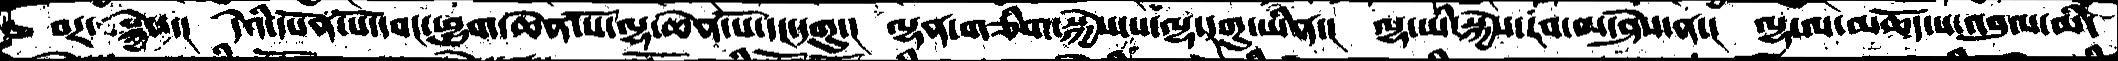བར་སྐྱེས་།  དེའི་དཔོན་པོ་དབང་ཕྱུག་ཆེན་པོ་ལྷ་ཆེན་པོོ་དང་དགུ་།  ལྷན་གཅིག་སྐྱེས་པ་ལྷ་དགུ་ཡིན་།  ལྷ་ཡི་སྐྱེས་རབ་མ་ཤེས་ན་།  ལྷ་ལ་མཆོད་པ་འབུལ་མི་
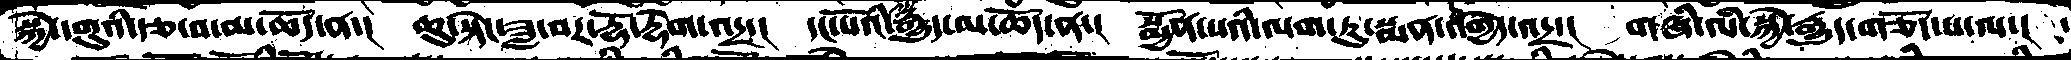སྐྱེ་དགུའི་རྩ་བ་མ་ཆོད་ན་།  ཆུ་སྟེང་ཟླ་བར་རྡོ་རྡེག་འདྲ་།  དང་པོའི་སྐྱེ་རྒྱུད་མ་ཆོད་ན་།  སྨྱོན་པའི་ལག་ཏུ་སྨན་འགྱེེད་འདྲ་།  གཞི་ལཾ་སྐྱེ་རྒྱུད་གཅོད་པ་ལ་།
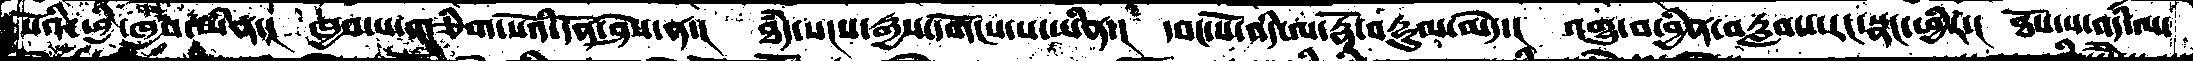སོའི་ཕྱི་ཁྱབ་ཡིན་།  ཁྱབ་པ་གཅིག་སོའི་དོན་ཤེས་ན་།  ཐཾད་སངས་རྒྱས་དགོངས་པ་ཡིན་།  དབང་པོ་འདི་ལ་རྣོ་བརྟུལ་མེད་།  འགྱུ་བ་བྱིན་བརླབས་རང་སྣང་ཕྱིར་།  ཐོས་པ་འདི་ལ་
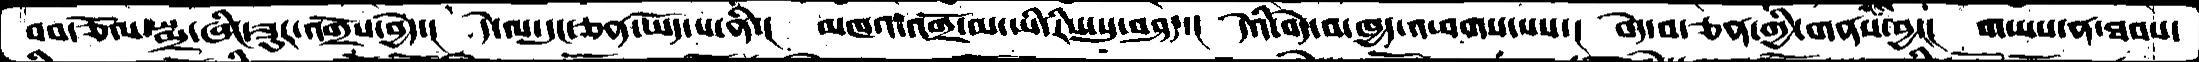བབ་ཅོལ་སྨྲ་ཞིང་ཟུར་འགྲོས་བྱེད་། དེ་ལ་དུང་ཅན་ཡོད་པ་ནི་། མཁའ་འགྲོ་མ་ཡི་རིས་སུ་བཤད་། དེའི་བདེ་བ་ཁྱད་འཕགས་པས་། བདེ་བ་ཅན་གྱི་གནས་ནས་བྱ།།  གཡས་ན་ཐབས་
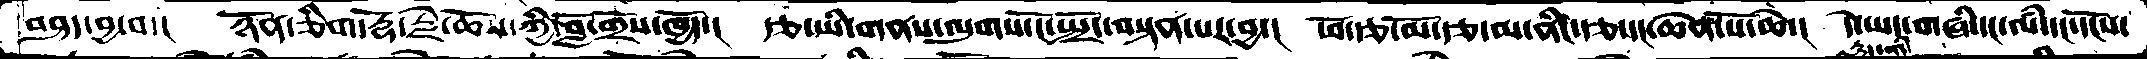བཤད་བྱ་བ་།  ཉོནཅིག་རྡོ་རྗེ་ཆོས་ཀྱི་བློ་གྲོས་ཁྱོད་། རྩ་ཡི་གནས་ལུགས་ངོ་སྤྲོད་བསྟན་པར་བྱ་། ཕོ་རྩ་མོ་རྩ་མ་ནིང་རྩ་དང་ཆེན་པོ་ཆེ་། དེ་ཡང་གཞི་དང་ལཾ་དང་དངོས་
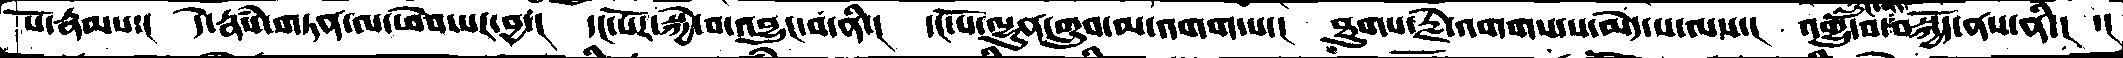པོ་རྣམས་། དེ་རྣཾས་གཏན་ལ་ཕེབ་པར་བྱ་། དང་པོར་སྐྱེ་བ་འབྱུང་བ་ནི་། དང་པོ་ལྷུན་གྲུབ་མ་འགག་པ་། ཐུགས་རྗེ་འགགས་པ་མེད་པ་ལས་། འགྱུ་བ་རླུང་ནད་བསྐྱོད་ནས་ནི་།  ་།
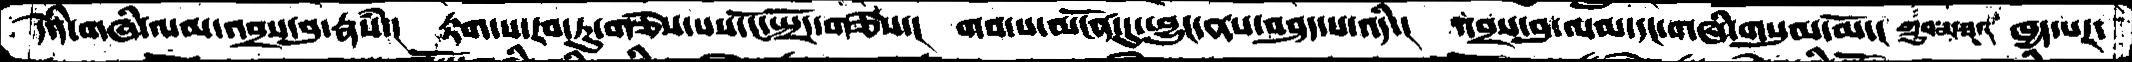དེའི་གཞི་ལམ་འབྲས་བུ་རྣཾས་། རྟག་པ་རབ་ཏུ་གཅེས་པས་ངོ་སྤྲོད་གཅེས་། གབ་པ་མངོན་དུ་ཕྱུང་ནས་བཤད་པ་འདི་། འབྲས་བུ་ལམ་དང་གཞི་གསུམ་མོ་། གྲུབ་མཐའ་ཁྱད་པར་
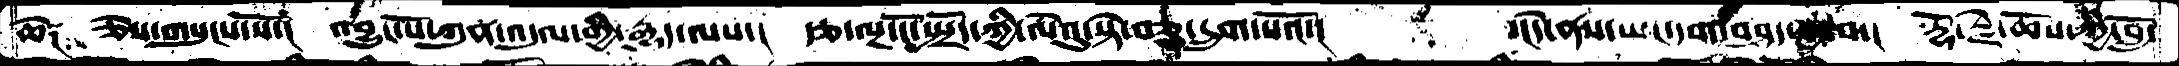ཆེ༑  ཅེས་གསུངས་སོ་། འབྱུང་པོ་ཀུན་འདུལ་གྱི་རྒྱུད་ལས་། རྩ་ལྔ་ངོ་སྤྲོད་ཀྱི་ལེའུ་སྟེ་བཅུ་དྲུག་པའོ་།   ༈  ་།དེ་ནས་ཡང་དག་བཤད་བྱ་བ་། རྡོ་རྗེ་ཆོས་ཀྱི་བློ་
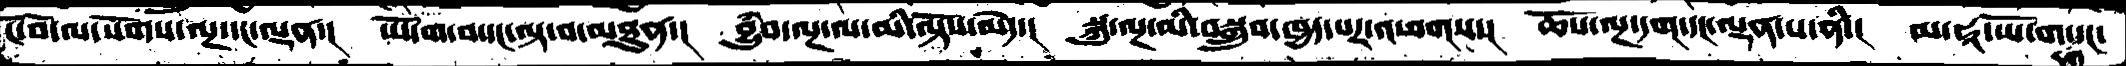ངོ་བོ་ལ་སོགས་ལྔ་དང་ལྡན་།  ཡོ་ག་བ་དང་ལྟ་བ་མཐུན་། བྱུཾབ་ལྔ་ལ་མི་ལྟོས་མེད་། སྐུ་ལྔ་མི་བསྒྲུབ་ཁྱད་པར་འཕགས་། ཆོས་ལྔ་དག་དང་ལྡན་པ་ནི་། མ་ཧཱ་ཡོ་ག་དག་དང་
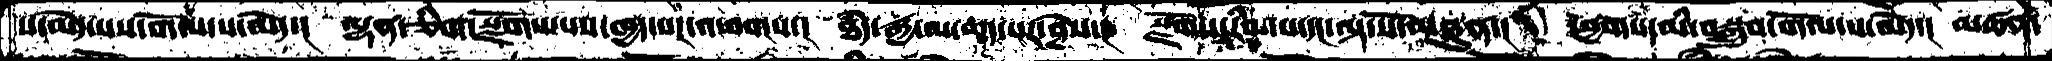ས་མེད་པས་གོལ་ས་མེད་། ལྷན་ཅིག་སྫོགས་པས་ཁྱད་པར་འཕགས་། ཐཾད་རྒྱ་ལ་ཆད་པར་བྱེས་། སྫོགས་རིམ་པ་དང་ལྟ་སོ་མཐུན་། ཕྱོགས་མི་བསྒྲུབ་གོལ་ས་མེད་། མཚན་
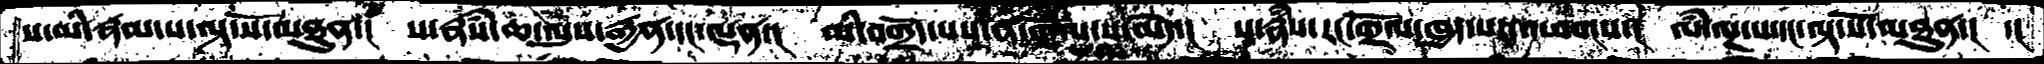ས་མི་རྣམ་པ་ལྟ་སོ་མཐུན་། ས་རྣཾས་ཆ་ལུས་རྒྱན་དང་ལྡན་། མི་བགྲོད་པས་ན་གྲོལ་ས་མེད་། ས་རྣཾས་རང་གྲོལ་ཁྱད་པར་འཕགས་། ལཾ་ལྔ་ས་དང་ལྟ་སོ་མཐུན་།  ་།
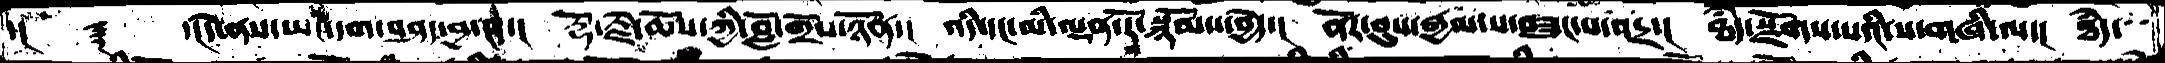་།  ༈  ་།དེ་ནས་ཡང་དག་བཤད་བྱ་བ་། རྡོ་རྗེ་ཆོས་ཀྱི་བློ་གྲོས་ཉོན་། འདི་དང་མི་ལྡན་རོ་སྙོམས་བྱེད་། ནོར་བུས་རྒྱལ་པ་བཟུང་པ་འདྲ་། ཐཾད་སྫོགས་པའི་ས་གཞི་ལ་། ཐཾད་་
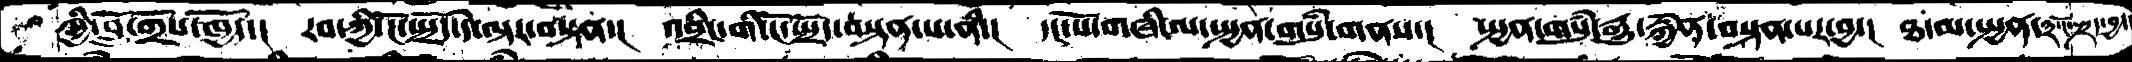ཀྱི་བློ་གྲོས་ཁྱོད་།  རབ་ཀྱི་ངོ་སྤྲོད་དེ་ལྟར་བསྟན་། འབྲིང་གི་ངོ་སྤྲོད་བསྟན་པ་ནི་།  དང་པོ་གཞི་ལ་སྤྱན་གསུཾ་གནས་། སྤྱན་གསུཾ་རྒྱུ་རྐྱེན་བསྟན་པར་བྱ་། ཐ་མ་སྤྱན་༣་ངོ་སྤྲོད་བྱ་།
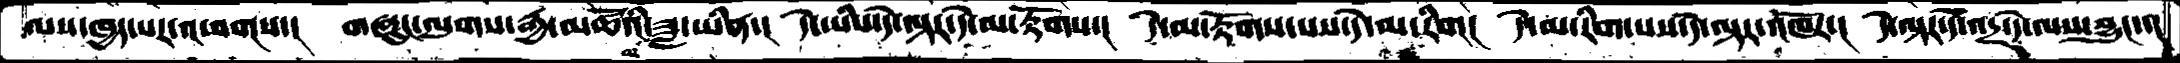ལས་ཁྱད་པར་འཕགས་།  གཞུང་ལུགས་རྒྱ་མཚོའི་ཟླ་ཡིན་།  དེ་ཡིས་དེ་ལྟར་དེ་མ་རྟོགས་།  དེ་མ་རྟོགས་པས་དེ་མ་རིག།  དེ་མ་རིག་པས་དེ་ལྟར་འཁོར་།  དེ་ལྟར་དེ་འདྲ་དེ་ལས་བྱུང་་།
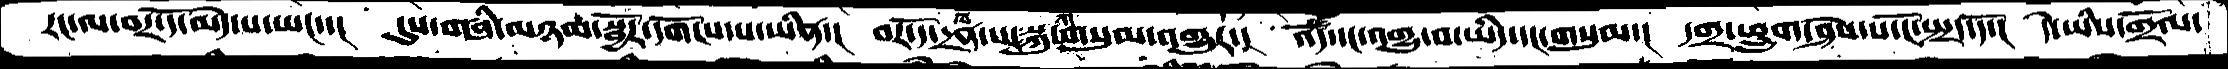རང་ལ་བར་དོ་མེད་པ་ཡང་་།  དུས་གཞི་མཉམ་སྦྱོར་དགོངས་པ་ཡིན་།  བར་དོ་དྲན་པ་སྐུ་གསུམ་འགྱུར་།  འདོ་དང་འགྱུ་བ་ཡིད་དང་གསུམ་།  དགྲ་ཕྲུག་ཤེས་པ་ངོ་སྤྲད་དོ་།  དེ་ཡིས་གྲོལ་
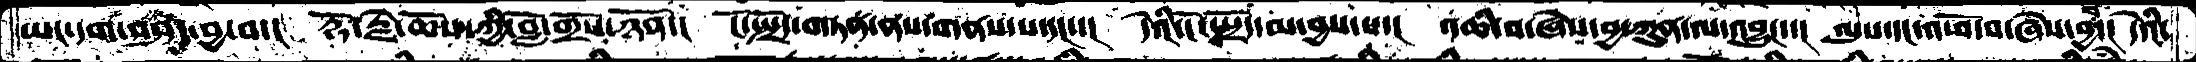ཡང་དག་བཤད་བྱ་བ་།  རྡོ་རྗེ་ཆོས་ཀྱི་བློ་གྲོས་ཉོན་།  ངོ་སྤྲོད་གཏན་ནས་གནས་པ་དང་་།  དེའི་ངོ་སྤྲོ་མ་བྱས་པ་།   འཆི་བ་ཞེས་བྱ་ཀུན་ལ་འབྱུང་་།  ལུས་དང་འཕོ་བ་ཞེས་བྱ་བ་།  དེའི་
